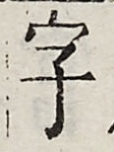字
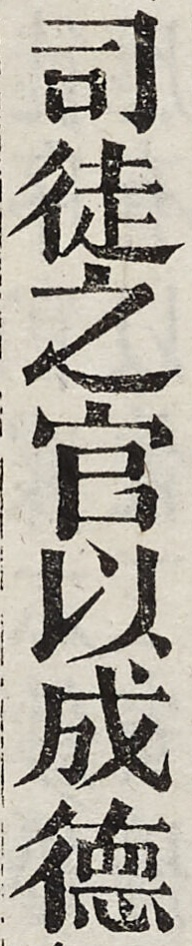司徒之官以成德
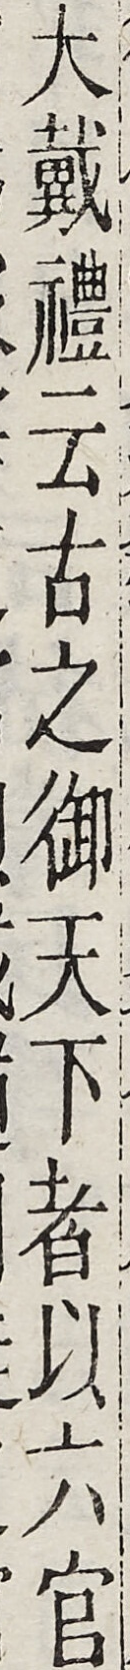大戴禮云古之御天下者以六官
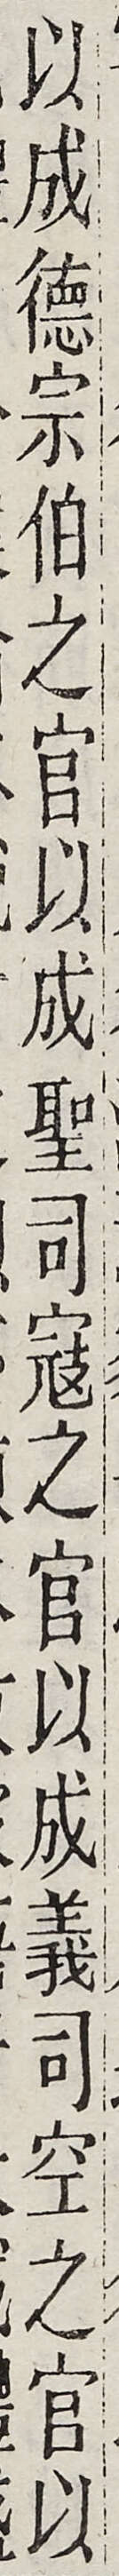以成德宗伯之官以成聖司寇之官以成義司空之官以
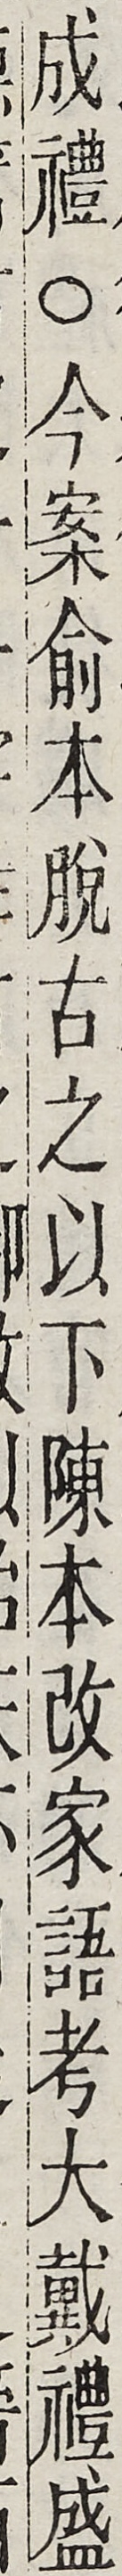成禮○今案俞本脫古之以下陳本改家語考大戴禮盛
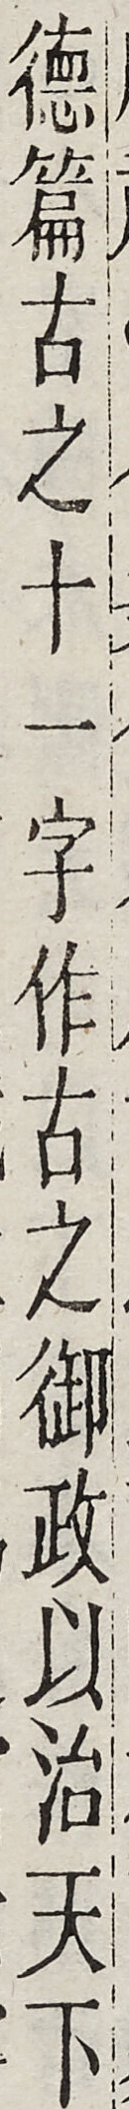德篇古之十一字作古之御政以治天下
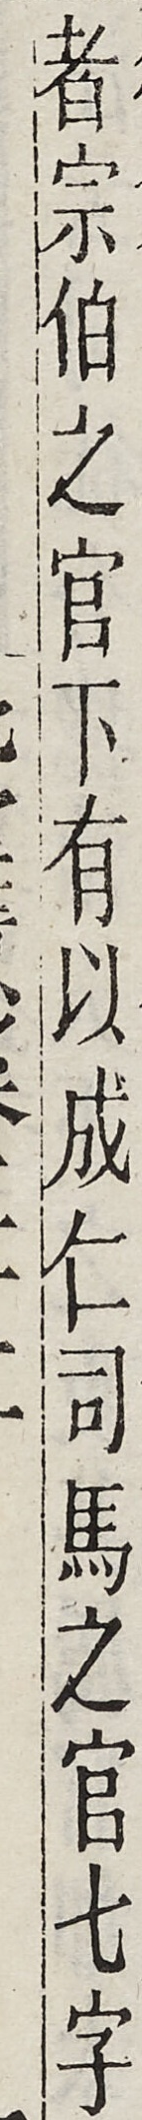者宗伯之官下有以成仁司馬之官七字
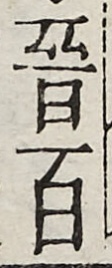晉百
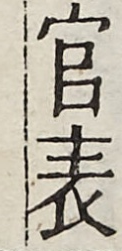官表
